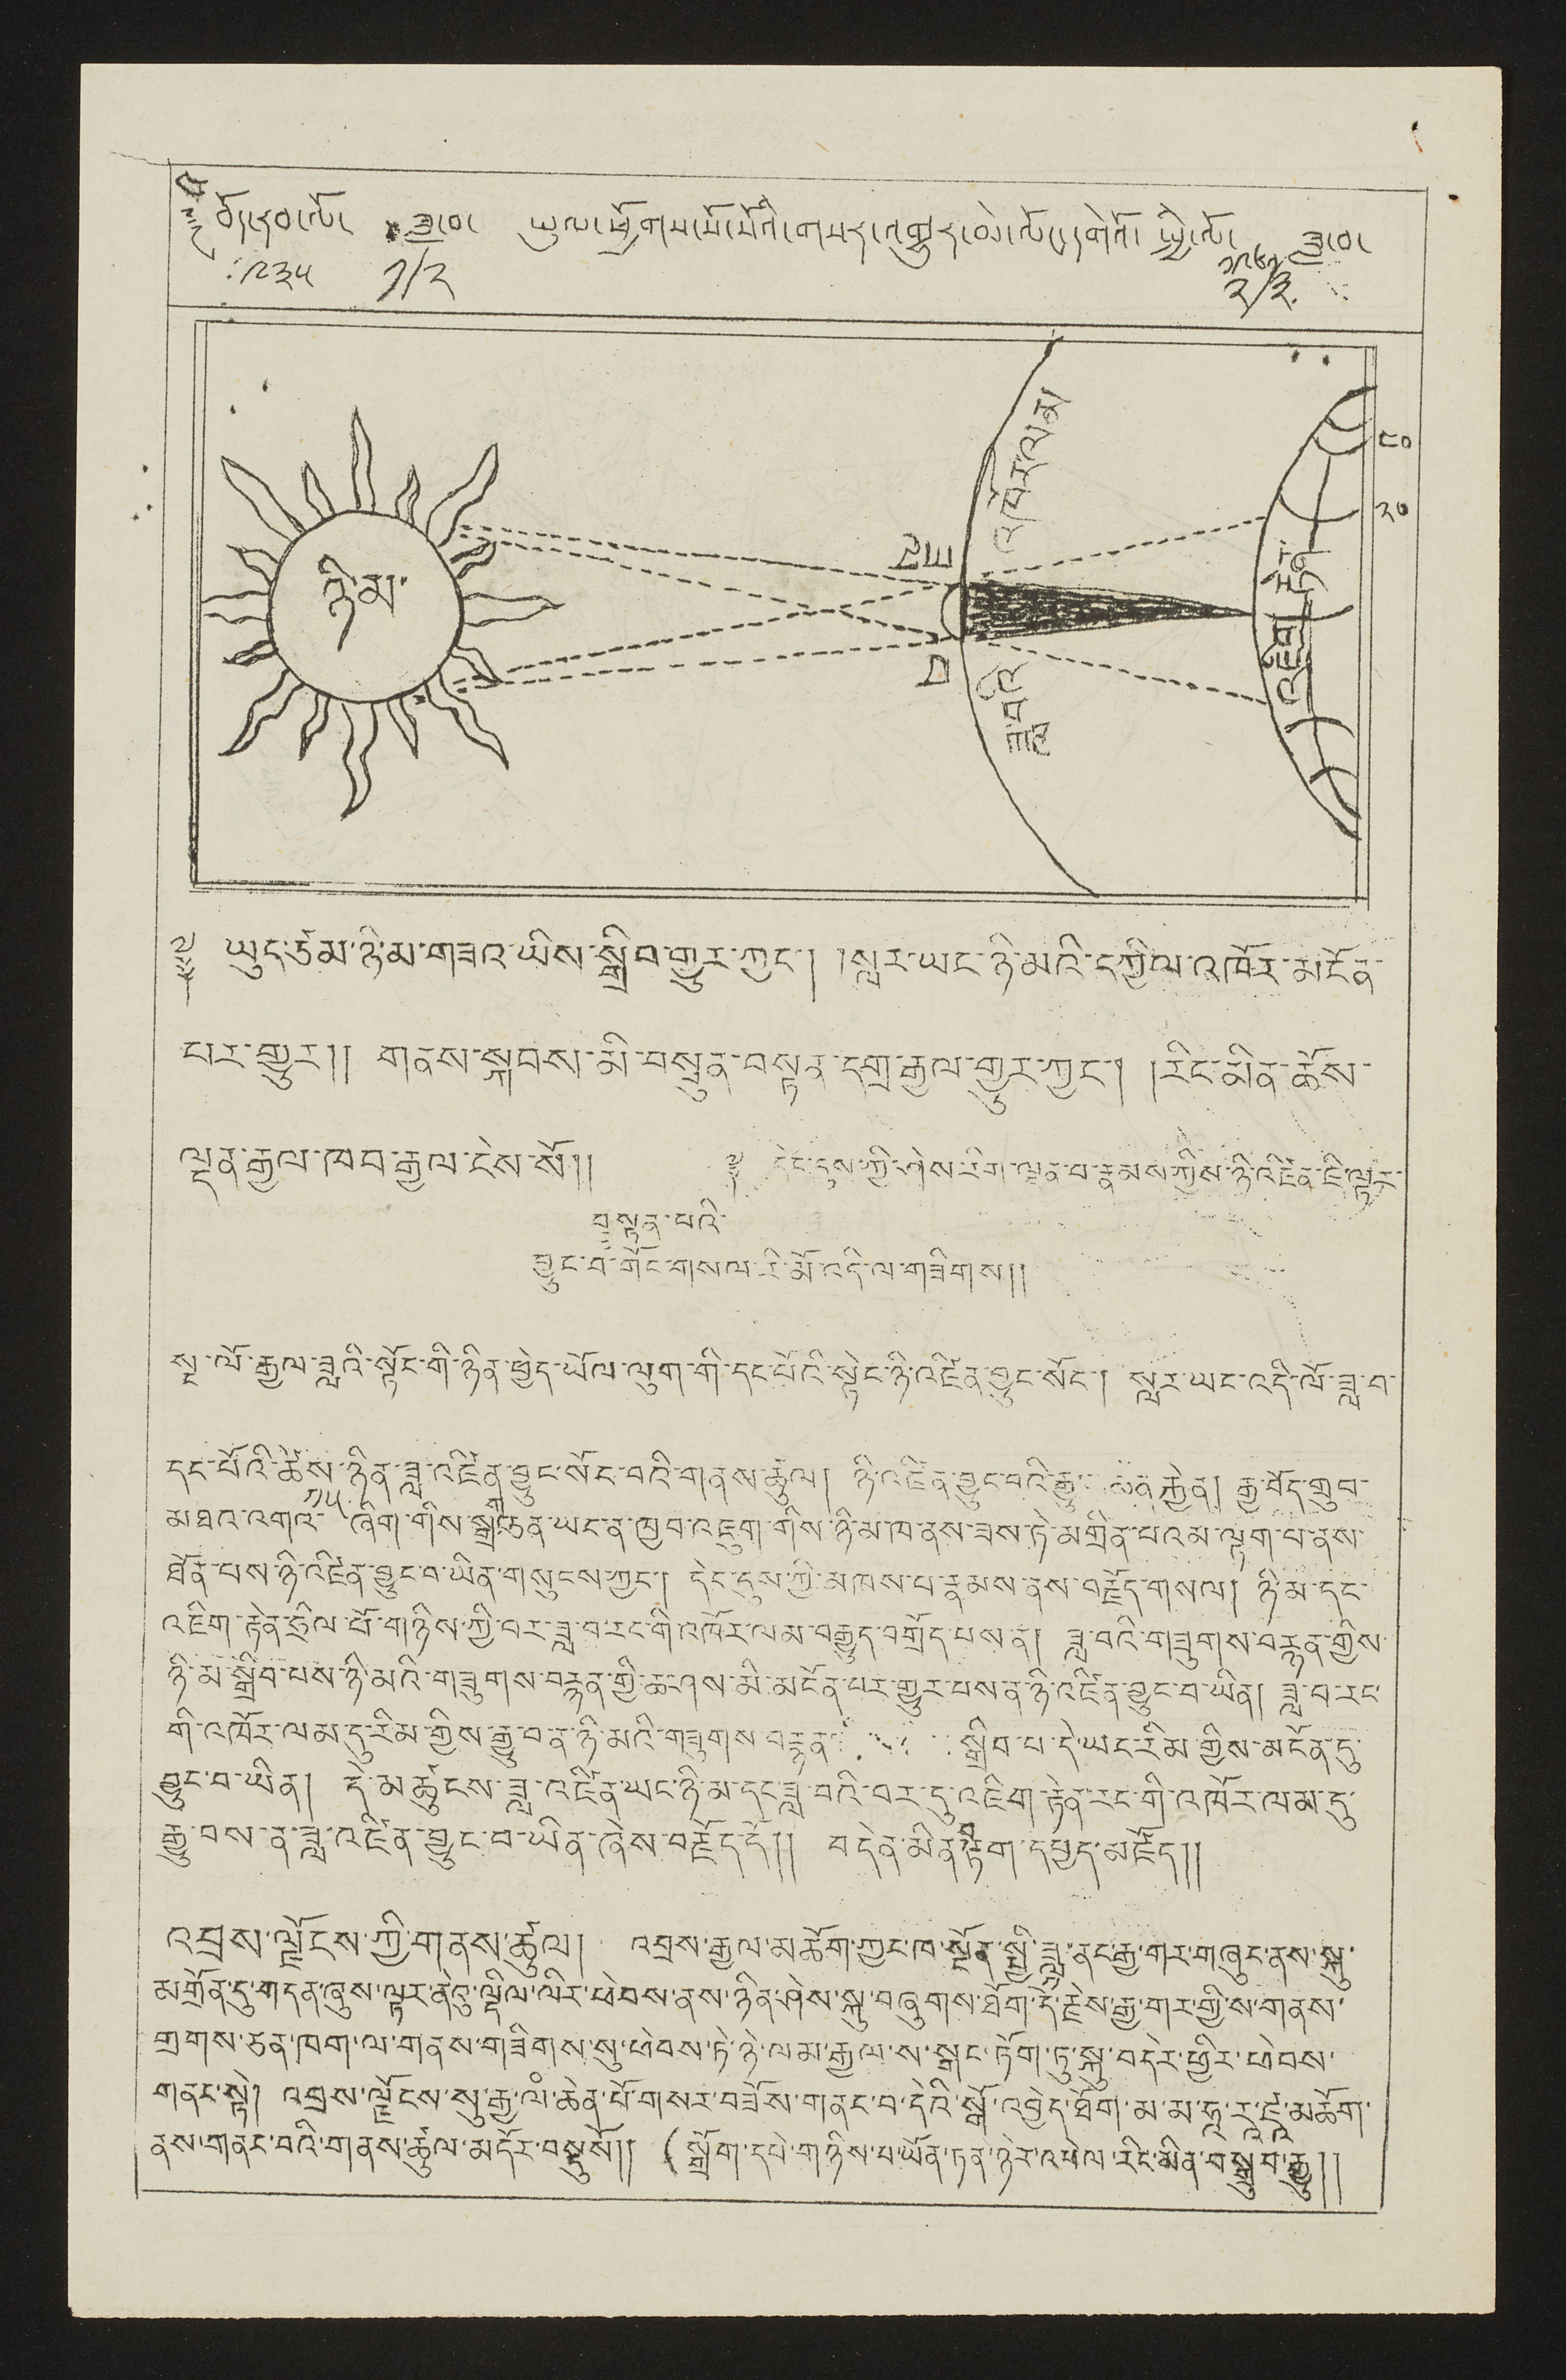༤
༈ བོད་རབ་ལོ་
༩༣༥
ཟླ་བ་
༡/༢
ཡུལ་ཕྱོགས་སོ་སོའི་གསར་འགྱུར་མེ་ལོང་དགེའོ་ སྤྱི་ལོ་
༡༩༦༡
ཟླ་བ་
༢/༣
ཉི་མ་
ཟླ་བ་
ཟླ་བའི་ འཁོར་ལམ་
༤༠
༢༠
འཇིག་རྟེན་
༈ ཡུད་ཙམ་ཉི་མ་གཟའ་ཡིས་སྒྲིབ་གྱུར་ཀྱང་། །སླར་ཡང་ཉི་མའི་དཀྱིལ་འཁོར་མངོན་
པར་གྱུར།། གནས་སྐབས་མི་བསྲུན་བསྟན་དགྲ་རྒྱལ་གྱུར་ཀྱང་། །རིང་མིན་ཆོས་
ལྡན་རྒྱལ་ཁབ་ངེས་སོ།། ༈ དེང་དུས་ཀྱི་ཤེས་རིག་ལྡན་པ་རྣམས་ཀྱིས་ཉི་འཛིན་ཇི་ལྟར་
བསྟན་པའི་
བྱུང་བ་གོང་གསལ་རི་མོ་འདི་ལ་གཟིགས།།
སྔ་ལོ་རྒྱལ་ཟླའི་སྟོང་གི་ཉིན་ཕྱེད་ཡོལ་ལུག་གི་དང་པོའི་སྟེང་ཉི་འཛིན་བྱུང་སོང་། སླར་ཡང་འདི་ལོ་ཟླ་བ་
དང་པོའི་ཚེས་
༡༥
ཉིན་ཟླ་འཛིན་བྱུང་སོང་བའི་གནས་ཚུལ། ཉི་འཛིན་བྱུང་བའི་རྒྱུ་མཚན་རྐྱེན། རྒྱ་བོད་གྲུབ་
མཐའ་འགའ་ ཞིག་གིས་སྒྲག་ཅན་ཡང་ནས་ཁྱབ་འཇུག་གིས་ཉི་མ་ཁ་ནས་ཟས་ཏེ་མགྲིན་པའམ་ལྟག་པ་ནས་
ཐོན་པས་ཉི་འཛིན་བྱུང་བ་ཡིན་གསུངས་ཀྱང་། དེང་དུས་ཀྱི་མཁས་པ་རྣམས་ནས་བརྗོད་གསལ། ཉི་མ་དང་
འཇིག་རྟེན་ཧྲིལ་པོ་གཉིས་ཀྱི་བར་ཟླ་བ་རང་གི་འཁོར་ལམ་བརྒྱུད་བགྲོད་པས་ན། ཟླ་བའི་གཟུགས་བརྙན་གྱིས་
ཉི་མ་སྒྲིབ་པས་ཉི་མའི་གཟུགས་བརྙན་གྱི་ཆ་ཤས་མི་མངོན་པར་གྱུར་པས་ན་ཉི་འཛིན་བྱུང་བ་ཡིན། ཟླ་བ་རང་
གི་འཁོར་ལམ་དུ་རིམ་གྱིས་རྒྱུ་བ་ན་ཉི་མའི་གཟུགས་བརྙན་ སྒྲིབ་པ་དེ་ཡང་རིམ་གྱིས་མངོན་དུ་
བྱུང་བ་ཡིན། དེ་མཚུངས་ཟླ་འཛིན་ཡང་ཉི་མ་དང་ཟླ་བའི་བར་དུ་འཇིག་རྟེན་རང་གི་འཁོར་ལམ་དུ་
རྒྱུ་བས་ན་ཟླ་འཛིན་བྱུང་བ་ཡིན་ཞེས་བརྗོད་དོ།། བདེན་མིན་བརྟག་དཔྱད་མཛོད།།
འབྲས་ལྗོངས་ཀྱི་གནས་ཚུལ། འབྲས་རྒྱལ་མཆོག་ཀྱང་ཁ་སྔོན་སྤྱི་ཟླ་
༡
ནང་རྒྱ་གར་གཞུང་ནས་སྐུ་
མགྲོན་དུ་གདན་ཞུས་ལྟར་ནེའུ་ལྡིལ་ལིར་ཕེབས་ནས་ཉིན་ཤེས་སྐུ་བཞུགས་ཐོག་དེ་རྗེས་རྒྱ་གར་གྱི་ས་གནས་
གྲགས་ཅན་ཁག་ལ་གནས་གཟིགས་སུ་ཕེབས་ཏེ་ཉི་ལམ་རྒྱལ་ས་སྒང་ཏོག་ཏུ་སྐུ་བདེར་ཕྱིར་ཕེབས་
གནང་སྟེ། འབྲས་ལྗོངས་སུ་རྒྱ་ལཾ་ཆེན་པོ་གསར་བཟོས་གནང་བ་དེའི་སྒོ་འབྱེད་ཐོག་མ་མ་ཧཱ་རཱ་ཛཱ་མཆོག་
ནས་གནང་བའི་གནས་ཚུལ་མདོར་བསྡུསོ།། (སྒྲོག་དཔེ་གཉིས་པ་ཡོན་ཏན་ཉེར་འཕེལ་རིང་མིན་བསྒྲུབ་རྒྱུ།།
